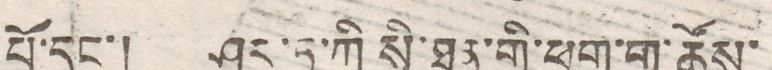པོ་དང་། ཤར་ཏུ་ཀི སི་ཐན་གྱི་ཕྲུག་གུ་ཚོས་
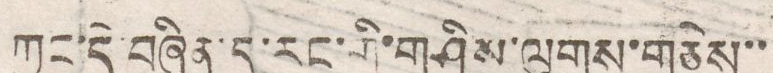ཀྱང་དེ་བཞིན་དུ་རང་གི་གཤིས་ལུགས་གཅེས་་
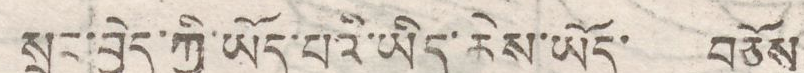སྲུང་བྱེད་ཀྱི་ཡོད་པའི་ཡིད་ཆེས་ཡོད་ བཅོས
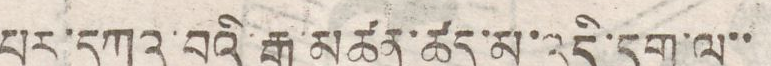པར་དཀའ་བའི་རྒྱུ་མཚན་ཚད་མ་འདི་དག་ལ་་
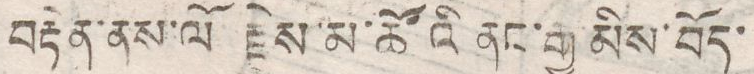བརྟེན་ནས་ལོ རྗེས་མ་ཚོའི ནང་རྒྱ་མིས་བོད་
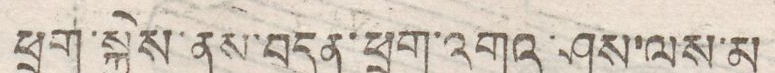ཕྲུག་སྐྱེས་ནས་བདུན་ཕྲག་འགའ་ཤས་ལས་མ
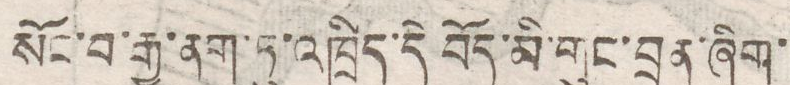སོང་བ་རྒྱ་ནག་ཏུ་འཁྲིད་དེ བོད་མི་གུང་བྲན་ཞིག་
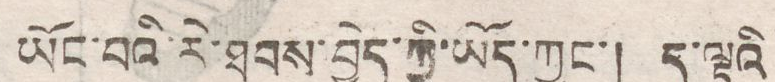ཡོང་བའི་རེ་ཐབས་བྱེད་ཀྱི་ཡོད་ཀྱང་། ད་ལྟའི
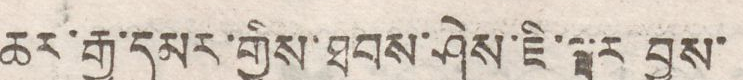ཆར་རྒྱ་དམར་གྱིས་ཐབས་ཤེས་ཇི་ལྟར བྱས་
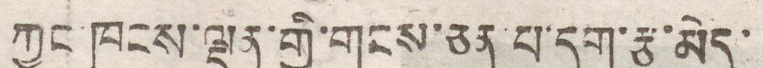ཀྱང་ཁུངས་ལྡན་གྱི་གངས་ཅན་པ་དག་རྩ་མེད་
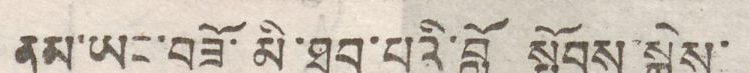ནམ་ཡང་བཟོ་མི་ཐུབ་པའི་བློ སྤོབས་སྐྱེས་
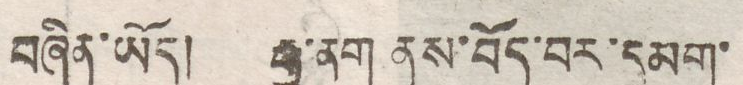བཞིན་ཡོད། རྒྱ་ནག ནས་བོད་བར་དམག་
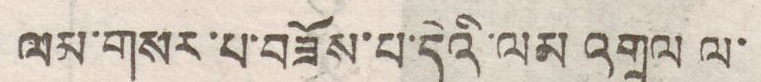ལམ་གསར་པ་བཟོས་པ་དེའི་ལམ འགྲུལ ལ་
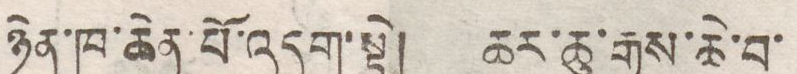ཉེན་ཁ་ཆེན་པོ་འདུག་སྟེ། ཆར་ཆུ་རྒྱས་ཆེ་བ་
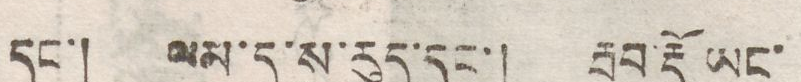དང་། ལམ་དུ་ས་རུད་དང་། རྦས་རྡོ ཡང་
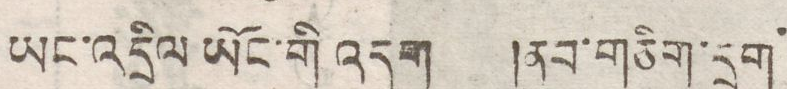ཡང་འདྲིལ ཡོང་གི འདུག །ནུབ་གཅིག་དྲག་
